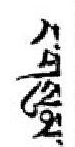ང་གསུམ་
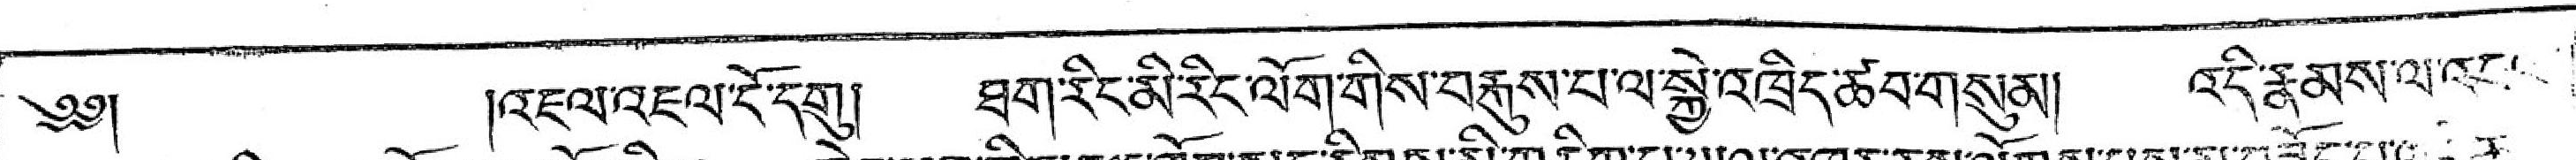༄༅།  །འཇལ་འཇལ་ངོ་དགུ། ཐག་རིང་མི་རིང་ལོག་གིས་བརྐུས་པ་ལ་སྐྱེ་འཁྲིད་ཚབ་གསུམ། འདི་རྣམས་ལ་་་་་་
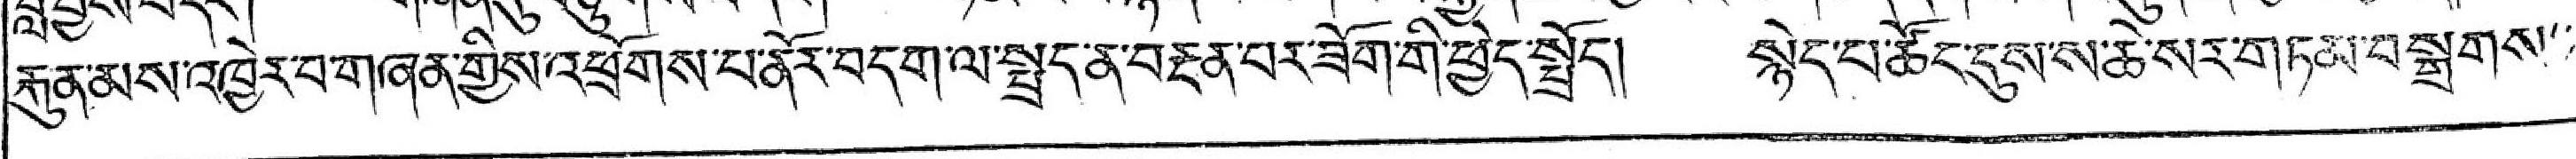རྐུན་མས་འཁྱེར་བ་གཞན་གྱིས་འཕྲོགས་པ་ནོར་བདག་ལ་སྤྲད་ན་བརྔན་པར་ཟོག་གི་ཕྱེད་སྤྲོད། སྙེད་པཚོང་དུས་ས་ཆེ་སར་གཏམ་བསྒྲགས་་
